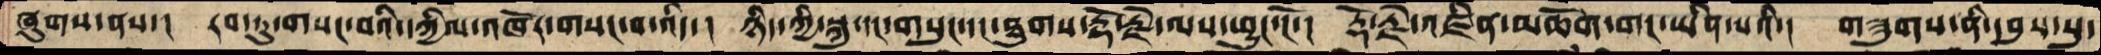ཞུགས་ནས་།  རབ་ཏུ་གསང་བའི་དཀྱིལ་འཁོར་གསང་བ་འདི་།  ཉིད་ཀྱི་སྐུ་དང་གསུང་དང་ཐུགས་རྡོ་རྗེ་ལས་ཕྱུང་ངོ་།  རྡོ་རྗེ་འཛིན་མཆོག་གང་ཡིན་པའི་།  གཟུགས་ནི་དབུས་སུ་
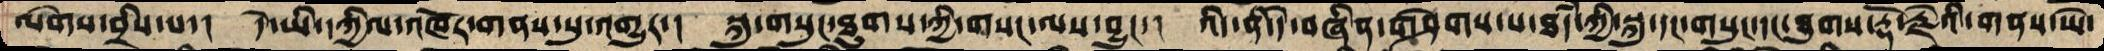ལེགས་བྲིས་པ་།  དེ་ཡི་དཀྱིལ་འཁོར་གནས་སུ་འགྱུར་།  སྐུ་གསུང་ཐུགས་ཀྱི་གསང་ལས་བྱུང་།  འདི་ནི་དེ་བཞིན་གཤེགས་པ་ཐཾད་ཀྱི་སྐུ་དང་གསུང་དང་ཐུགས་རྡོ་རྗེའི་གནས་ཡེ་
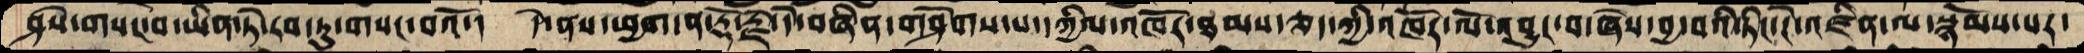ཤེས་གསང་བ་ཡིན་ཏེ་རབ་ཏུ་གསང་བའོ་།  དེ་ནས་ཕྱག་ན་རྡོོ་རྗེ་དེ་བཞིན་གཤེགས་པ་དཀྱིལ་འཁོར་ཐམས་ཅད་ཀྱི་འཁོར་ལོ་འབྱུང་བ་ཞེས་བྱ་བའི་ཏིང་ངེ་འཛིན་ལ་སྙོམས་པར་
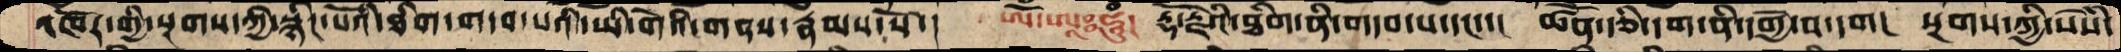འཁོར་གྱི་སྔགས་ཀྱི་སྙིང་པོའི་ཐིག་གདབ་པའི་ཡི་གེའི་གནས་རྣམས་སོ་།  ཨོཾ་ཨཱཿཧཱུཾ།  རྡོ་རྗེའི་ཐིག་ནི་གདབ་པ་དང་་།  ཚོན་རྩི་དག་ནི་དགྱེ་བ་དག།  སྔགས་ཀྱི་སེཾས་
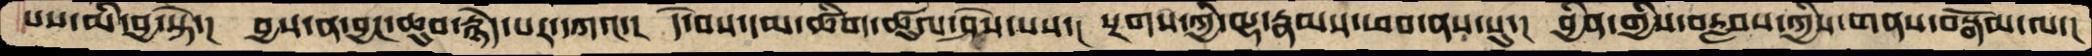པས་མི་བྱ་སྟེ་།  བྱས་ན་བྱང་ཆུབ་རྙེད་པར་དཀའ་།  དེ་བས་དམ་ཚིག་ཚུལ་ཤེས་པས་།  སྔགས་ཀྱི་ལྷ་རྣམས་ཕབ་ནས་སུ་།  བྱིན་གྱིས་བརླབས་ཀྱིས་གནས་བསྒོམ་ལ་།
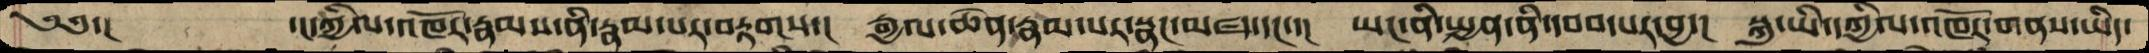༄༅་།    ་།དཀྱིལ་འཁོར་རྣམས་ནི་རྣམ་པར་བརྟགས་།  རྒྱལ་ཆེན་རྣམ་པར་སྣང་མཛད་དང་་།  ཡང་ནི་སྤྱན་ནི་དབབ་པར་བྱ་།  སྐུ་ཡི་དཀྱིལ་འཁོར་གནས་ཡིད་
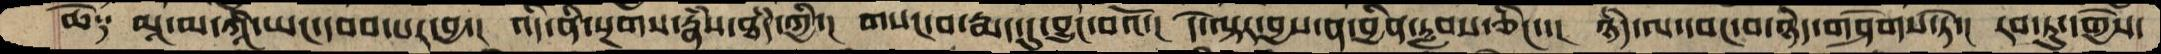ཆེ༑  མཱ་མ་ཀཱི་ཡང་དབབ་པར་བྱ་།  འདི་ནི་སྔགས་རྣཾས་ཐདཾ་ཀྱི་།  གསང་བ་རྨད་དུ་བྱུང་བའོ་།  དེ་ལྟར་བྱས་ན་བྱིན་རླབས་ཅིང་་།  ཉིད་ལ་དབང་བ་ཉིད་གཤེགས་ཏེ་།  རབ་ཏུ་དགྱེས་
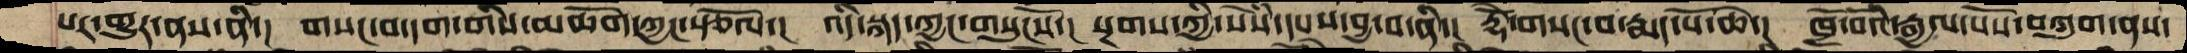པར་གྱུར་ནས་ནི་།  གསང་བ་དག་གིས་མཆོག་ཀྱང་སྩོལ་།  འདི་སྐད་ཀྱང་གསུངསོ་།  སྔགས་ཀྱི་སེཾས་དཔས་བྱ་བ་ནི་།  རྡོེ་གསང་བ་རྨད་པོ་ཆེ་།  ཁྲོ་བོའི་རྒྱལ་པོས་བཀུག་ནས་
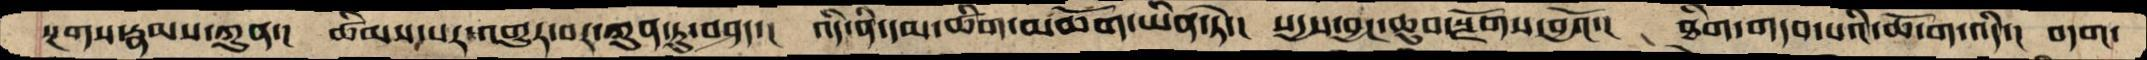སྔགས་རྣམས་ཀུན་།  ཚིམས་པར་འགྱུར་བར་ཀུན་ཏུ་བཤད་།  འདི་ནི་དམ་ཚིག་མཆོག་ཡིན་ཏེ་།  སདྱས་བྱང་ཆུབ་སྫོགས་བྱའོ་།  ཐིག་གདབ་པའི་ཆོ་ག་འདི་།  བདག་
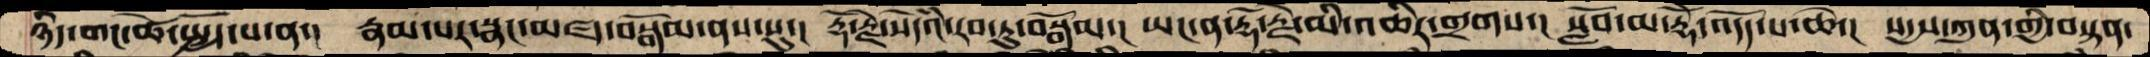ཉིད་གང་ཚེ་སྤྱོད་པ་ན་།  རྣམ་པར་སྣང་མཛད་བསྒོམ་ནས་སུ་།  རྡོ་རྗེ་སེདཾའ་རབ་ཏུ་བསྒོམ་།  ཡང་ན་རྡོ་རྗེ་མི་འཆིར་གྲགས་།  སློབ་མ་རྡོེ་འདོད་པ་ཆེ་།  སདྱས་ཀུན་གྱི་བསྟན་
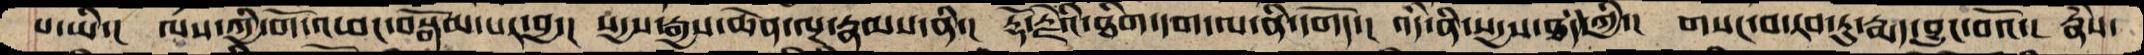པ་ཡི་།  ལས་ཀྱི་གོ་འཕང་བསྒོམ་པར་བྱ་།  སདྱས་རྒྱས་ཆེན་ལྔ་རྣམས་ནི་།  རྡོ་རྗེའི་ཐིག་དག་ལ་ནི་དགོད་།  འདི་ནི་སདྱས་ཐདཾ་ཀྱི་།  གསང་བ་རབ་ཏུ་རྨད་བྱུང་བའོ་།  རྣཾས་
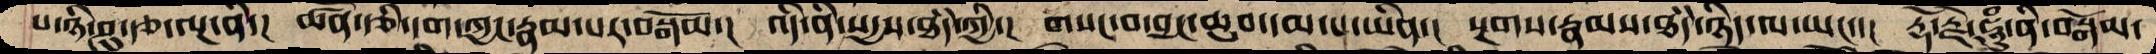པ་ཉི་ཤུ་རྩ་ལྔ་ནི་།  ཚན་རྩི་དག་ཀྱང་རྣམ་པར་བསྒོམ་།  འདི་ནི་སདྱས་ཐཾད་ཀྱི་།  གསང་བ་བྱང་ཆུབ་དམ་པ་ཡིན་།  སྔགས་རྣམས་ཐཾད་ཉིད་ལ་ཡང་་།  རྡོ་རྗེ་ཧཱུཾ་ནི་བསྒོམ་
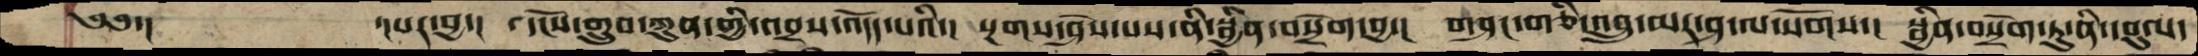༄༅་།      ་།པར་བྱ་།  དངོས་གྲུབ་ཀུན་གྱི་འབྲས་འདོད་པའི་།  སྔགས་ཤེས་པས་ནི་སྦྱིན་བསྲེག་བྱ་།  གཤང་གཅི་འབྲུ་མར་ཤ་ལ་སོགས་།   སྦྱིན་བསྲེག་ཏུ་ནི་དབུལ་
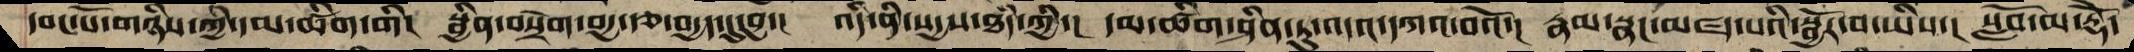དབང་པོ་གཉིས་ཀྱི་དམ་ཚིག་གི།  སྦྱིན་བསྲེག་བདྱ་རྩ་བདྱད་དུ་བྱ་།  འདི་ནི་སདྱས་ཐདཾ་ཀྱི་།  དམ་ཚིག་ཤིན་ཏུ་འདའ་དཀའ་བའོ་།  རྣམ་སྣང་མཛད་པའི་སྦྱོར་བ་ཡིས་།  སློབ་མ་རྡོེ་
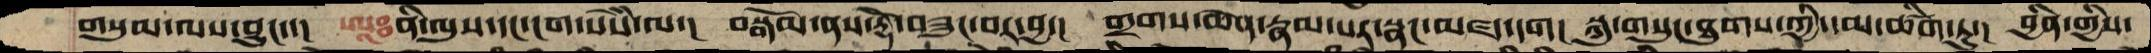གསུམ་ལས་བྱུང་་།  ཨཱཿནི་ལུས་དང་ངག་སེཾས་ལ་།  བསྒོམ་ནས་རྡོེ་བཟུང་བར་བྱ་།  གྲགས་ཆེན་རྣམ་པར་སྣང་མཛད་དག།  སྐུ་གསུང་ཐུགས་ཀྱི་དམ་ཚིག་ཏུ་།  བྱིན་གྱིས་
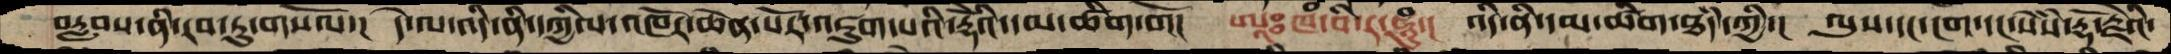བརླབས་ནི་རབ་ཏུ་གསོལ་།  དེ་ལ་འདི་ནི་དཀྱིལ་འཁོར་ཆེན་པོར་འཇུག་པའི་རྡོེའི་དམ་ཚིག་གོ།  ཨཱཿཁཾ་བི་ར་ཧཱུཾ་།  འདི་ནི་དམ་ཚིག་ཐདཾ་ཀྱི་།  ལུས་དང་ངག་དང་སེཾས་རྡོ་རྗེའི་
